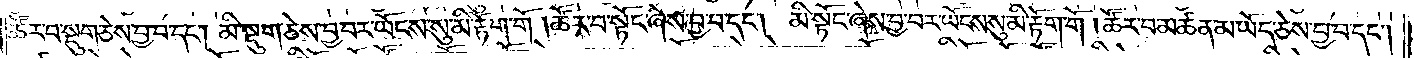ཚོར་བ་སྡུག་ཅེས་བྱ་བ་དང༌། མི་སྡུག་ཅེས་བྱ་བར་ཡོངས་སུ་མི་རྟོག་གོ །ཚོར་བ་སྟོང་ཞེས་བྱ་བ་དང༌། མི་སྟོང་ཞེས་བྱ་བར་ཡོངས་སུ་མི་རྟོག་གོ །ཚོར་བ་མཚན་མ་ཡོད་ཅེས་བྱ་བ་དང༌།
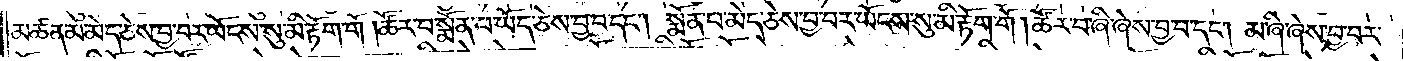མཚན་མ་མེད་ཅེས་བྱ་བར་ཡོངས་སུ་མི་རྟོག་གོ །ཚོར་བ་སྨོན་པ་ཡོད་ཅེས་བྱ་བ་དང༌། སྨོན་པ་མེད་ཅེས་བྱ་བར་ཡོངས་སུ་མི་རྟོག་གོ །ཚོར་བ་ཞི་ཞེས་བྱ་བ་དང༌། མ་ཞི་ཞེས་བྱ་བར་
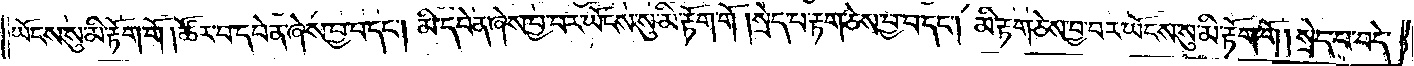ཡོངས་སུ་མི་རྟོག་གོ །ཚོར་བ་དབེན་ཞེས་བྱ་བ་དང༌། མི་དབེན་ཞེས་བྱ་བར་ཡོངས་སུ་མི་རྟོག་གོ །སྲེད་པ་རྟག་ཅེས་བྱ་བ་དང༌། མི་རྟག་ཅེས་བྱ་བར་ཡོངས་སུ་མི་རྟོག་གོ །སྲེད་པ་བདེ་
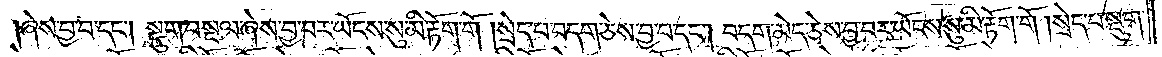ཞེས་བྱ་བ་དང༌། སྡུག་བསྔལ་ཞེས་བྱ་བར་ཡོངས་སུ་མི་རྟོག་གོ །སྲེད་པ་བདག་ཅེས་བྱ་བ་དང༌། བདག་མེད་ཅེས་བྱ་བར་ཡོངས་སུ་མི་རྟོག་གོ །སྲེད་པ་སྡུག་
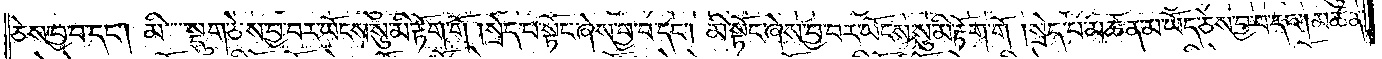ཅེས་བྱ་བ་དང༌། མི་སྡུག་ཅེས་བྱ་བར་ཡོངས་སུ་མི་རྟོག་གོ །སྲེད་པ་སྟོང་ཞེས་བྱ་བ་དང༌། མི་སྟོང་ཞེས་བྱ་བར་ཡོངས་སུ་མི་རྟོག་གོ །སྲེད་པ་མཚན་མ་ཡོད་ཅེས་བྱ་བ་དང༌། མཚན་
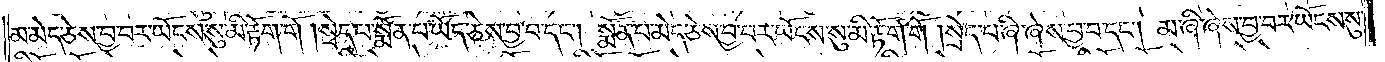མ་མེད་ཅེས་བྱ་བར་ཡོངས་སུ་མི་རྟོག་གོ །སྲེད་པ་སྨོན་པ་ཡོད་ཅེས་བྱ་བ་དང༌། སྨོན་པ་མེད་ཅེས་བྱ་བར་ཡོངས་སུ་མི་རྟོག་གོ །སྲེད་པ་ཞི་ཞེས་བྱ་བ་དང༌། མ་ཞི་ཞེས་བྱ་བར་ཡོངས་སུ་
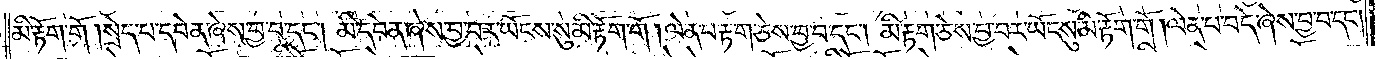མི་རྟོག་གོ །སྲེད་པ་དབེན་ཞེས་བྱ་བ་དང༌། མི་དབེན་ཞེས་བྱ་བར་ཡོངས་སུ་མི་རྟོག་གོ །ལེན་པ་རྟག་ཅེས་བྱ་བ་དང༌། མི་རྟག་ཅེས་བྱ་བར་ཡོངས་སུ་མི་རྟོག་གོ །ལེན་པ་བདེ་ཞེས་བྱ་བ་དང༌།
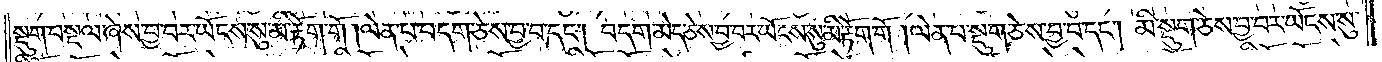སྡུག་བསྔལ་ཞེས་བྱ་བར་ཡོངས་སུ་མི་རྟོག་གོ །ལེན་པ་བདག་ཅེས་བྱ་བ་དང༌། བདག་མེད་ཅེས་བྱ་བར་ཡོངས་སུ་མི་རྟོག་གོ །ལེན་པ་སྡུག་ཅེས་བྱ་བ་དང༌། མི་སྡུག་ཅེས་བྱ་བར་ཡོངས་སུ་
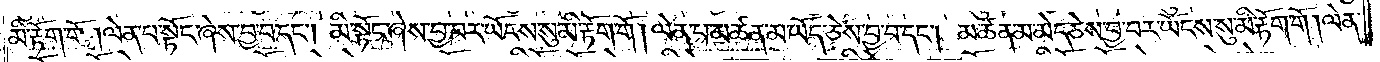མི་རྟོག་གོ །ལེན་པ་སྟོང་ཞེས་བྱ་བ་དང༌། མི་སྟོང་ཞེས་བྱ་བར་ཡོངས་སུ་མི་རྟོག་གོ །ལེན་པ་མཚན་མ་ཡོད་ཅེས་བྱ་བ་དང༌། མཚན་མ་མེད་ཅེས་བྱ་བར་ཡོངས་སུ་མི་རྟོག་གོ །ལེན་
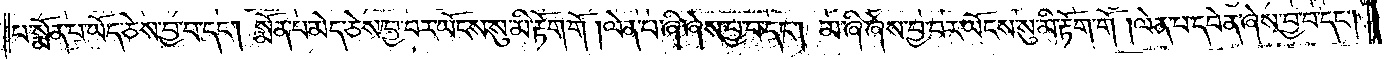པ་སྨོན་པ་ཡོད་ཅེས་བྱ་བ་དང༌། སྨོན་པ་མེད་ཅེས་བྱ་བར་ཡོངས་སུ་མི་རྟོག་གོ །ལེན་པ་ཞི་ཞེས་བྱ་བ་དང༌། མ་ཞི་ཞེས་བྱ་བར་ཡོངས་སུ་མི་རྟོག་གོ །ལེན་པ་དབེན་ཞེས་བྱ་བ་དང༌།
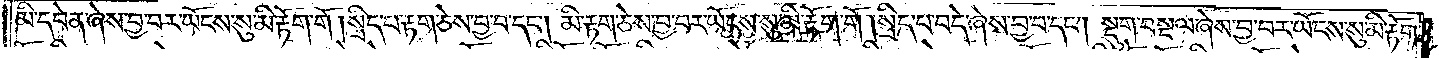མི་དབེན་ཞེས་བྱ་བར་ཡོངས་སུ་མི་རྟོག་གོ །སྲིད་པ་རྟག་ཅེས་བྱ་བ་དང༌། མི་རྟག་ཅེས་བྱ་བར་ཡོངས་སུ་མི་རྟོག་གོ །སྲིད་པ་བདེ་ཞེས་བྱ་བ་དང༌། སྡུག་བསྔལ་ཞེས་བྱ་བར་ཡོངས་སུ་མི་རྟོག་
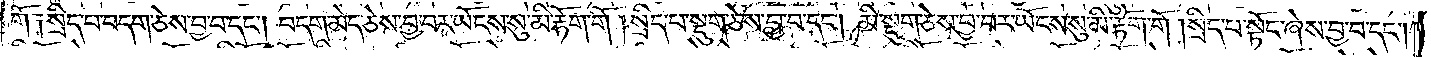གོ །སྲིད་པ་བདག་ཅེས་བྱ་བ་དང༌། བདག་མེད་ཅེས་བྱ་བར་ཡོངས་སུ་མི་རྟོག་གོ །སྲིད་པ་སྡུག་ཅེས་བྱ་བ་དང༌། མི་སྡུག་ཅེས་བྱ་བར་ཡོངས་སུ་མི་རྟོག་གོ །སྲིད་པ་སྟོང་ཞེས་བྱ་བ་དང༌།
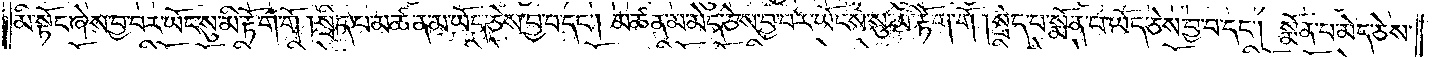མི་སྟོང་ཞེས་བྱ་བར་ཡོངས་སུ་མི་རྟོག་གོ །སྲིད་པ་མཚན་མ་ཡོད་ཅེས་བྱ་བ་དང༌། མཚན་མ་མེད་ཅེས་བྱ་བར་ཡོངས་སུ་མི་རྟོག་གོ །སྲིད་པ་སྨོན་པ་ཡོད་ཅེས་བྱ་བ་དང༌། སྨོན་པ་མེད་ཅེས་
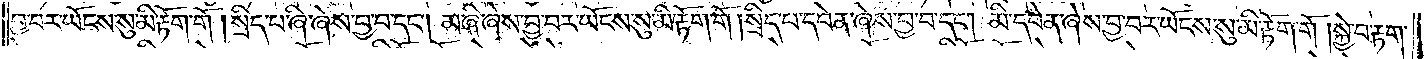བྱ་བར་ཡོངས་སུ་མི་རྟོག་གོ །སྲིད་པ་ཞི་ཞེས་བྱ་བ་དང༌། མ་ཞི་ཞེས་བྱ་བར་ཡོངས་སུ་མི་རྟོག་གོ །སྲིད་པ་དབེན་ཞེས་བྱ་བ་དང༌། མི་དབེན་ཞེས་བྱ་བར་ཡོངས་སུ་མི་རྟོག་གོ །སྐྱེ་བ་རྟག་
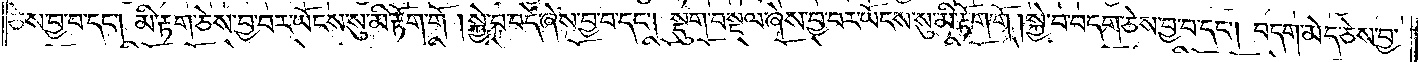ཅེས་བྱ་བ་དང༌། མི་རྟག་ཅེས་བྱ་བར་ཡོངས་སུ་མི་རྟོག་གོ །སྐྱེ་བ་བདེ་ཞེས་བྱ་བ་དང༌། སྡུག་བསྔལ་ཞེས་བྱ་བར་ཡོངས་སུ་མི་རྟོག་གོ །སྐྱེ་བ་བདག་ཅེས་བྱ་བ་དང༌། བདག་མེད་ཅེས་བྱ་
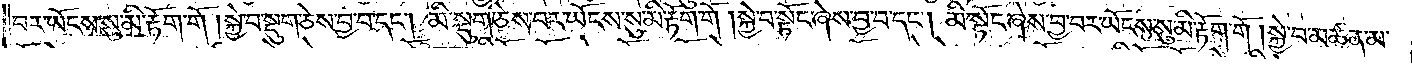བར་ཡོངས་སུ་མི་རྟོག་གོ །སྐྱེ་བ་སྡུག་ཅེས་བྱ་བ་དང༌། མི་སྡུག་ཅེས་བར་ཡོངས་སུ་མི་རྟོག་གོ །སྐྱེ་བ་སྟོང་ཞེས་བྱ་བ་དང༌། མི་སྟོང་ཞེས་བྱ་བར་ཡོངས་སུ་མི་རྟོག་གོ །སྐྱེ་བ་མཚན་མ་
